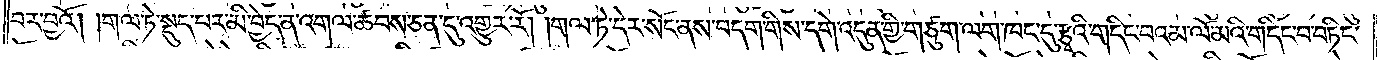བར་བྱའོ། །གལ་ཏེ་སྡུད་པར་མི་བྱེད་ན་འགལ་ཚབས་ཅན་དུ་འགྱུར་རོ། །གལ་ཏེ་དེར་སོང་ནས་བདག་གིས་དགེ་འདུན་གྱི་གཙུག་ལག་ཁང་དུ་རྩྭའི་གདིང་བའམ་ལོ་མའི་གདིང་བ་བཏིང་
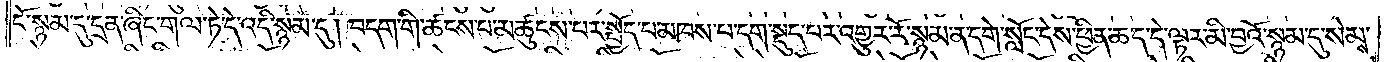ངོ་སྙམ་དུ་དྲན་ཞིང་གལ་ཏེ་དེ་འདི་སྙམ་དུ། བདག་གི་ཚངས་པ་མཚུངས་པར་སྤྱོད་པ་མཁས་པ་དག་སྡུད་པར་འགྱུར་རོ་སྙམ་ན་དགེ་སློང་དེས་ཕྱིན་ཆད་དེ་ལྟར་མི་བྱའོ་སྙམ་དུ་སེམས་
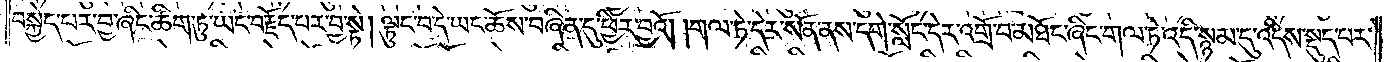བསྐྱེད་པར་བྱ་ཞིང་ཚིག་ཏུ་ཡང་བརྗོད་པར་བྱ་སྟེ། ལྟུང་བ་དེ་ཡང་ཆོས་བཞིན་དུ་ཕྱིར་བྱའོ། །གལ་ཏེ་དེར་སོན་ནས་དགེ་སློང་དེར་འགྲོ་བ་མཐོང་ཞིང་གལ་ཏེ་འདི་སྙམ་དུ་འདིས་སྡུད་པར་
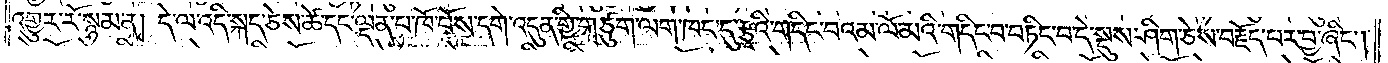འགྱུར་རོ་སྙམ་ན། དེ་ལ་འདི་སྐད་ཅེས་ཚེ་དང་ལྡན་པ་ཁོ་བོས་དགེ་འདུན་གྱི་གཙུག་ལག་ཁང་དུ་རྩྭའི་གདིང་བའམ་ལོ་མའི་གདིང་བ་བཏིང་བ་དེ་སྡུས་ཤིག་ཅེས་བརྗོད་པར་བྱ་ཞིང༌།
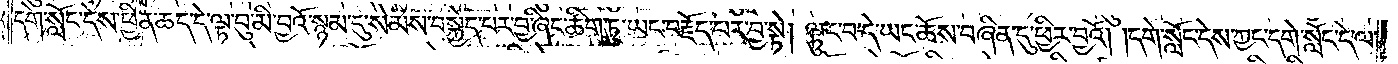དགེ་སློང་དེས་ཕྱིན་ཆད་དེ་ལྟ་བུ་མི་བྱའོ་སྙམ་དུ་སེམས་བསྐྱེད་པར་བྱ་ཞིང་ཚིག་ཏུ་ཡང་བརྗོད་པར་བྱ་སྟེ། ལྟུང་བ་དེ་ཡང་ཆོས་བཞིན་དུ་ཕྱིར་བྱའོ། །དགེ་སློང་དེས་ཀྱང་དགེ་སློང་དེ་ལ་
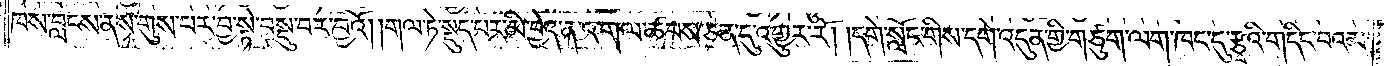ཁས་བླངས་ནས་གུས་པར་བྱ་སྟེ་བསྡུ་བར་བྱའོ། །གལ་ཏེ་སྡུད་པར་མི་བྱེད་ན་འགལ་ཆབས་ཅན་དུ་འགྱུར་རོ། །དགེ་སློང་གིས་དགེ་འདུན་གྱི་གཙུག་ལག་ཁང་དུ་རྩྭའི་གདིང་བའམ་
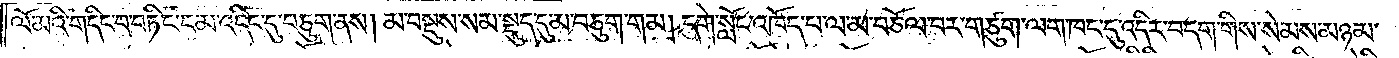ལོ་མའི་གདིང་བ་བཏིང་ངམ་འདིང་དུ་བཅུག་ནས། མ་བསྡུས་སམ་སྡུད་དུ་མ་བཅུག་གམ། དགེ་སློང་འཁོད་པ་ལ་མ་བཅོལ་བར་གཙུག་ལག་ཁང་དུ་འདིར་བདག་གིས་སེམས་མཉམ་
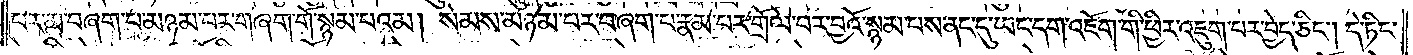པར་མ་བཞག་པ་མཉམ་པར་གཞག་གོ་སྙམ་པའམ། སེམས་མཉམ་པར་བཞག་པ་རྣམ་པར་གྲོལ་བར་བྱའོ་སྙམ་པས་ནང་དུ་ཡང་དག་པར་འཇོག་གི་ཕྱིར་འཇུག་པར་བྱེད་ཅིང༌། དེ་ཏིང་
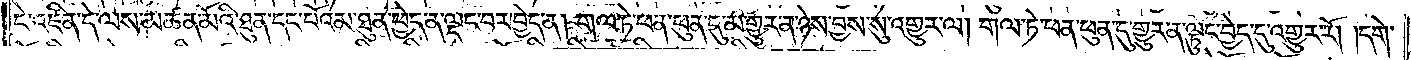ངེ་འཛིན་དེ་ལས་མཚན་མོའི་ཐུན་དང་པོའམ་ཐུན་ཕྱེད་ན་ལྡང་བར་བྱེད་ན། གལ་ཏེ་ཕན་ཕུན་དུ་མ་གྱུར་ན་ཉེས་བྱས་སུ་འགྱུར་ལ། གལ་ཏེ་ཕན་ཕུན་དུ་གྱུར་ན་བྱེད་དུ་འགྱུར་རོ། །དགེ་
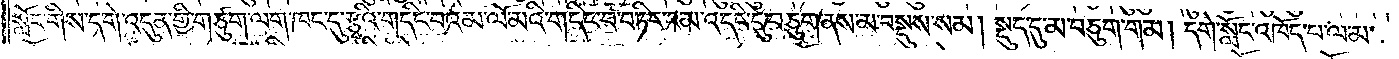སློང་གིས་དགེ་འདུན་གྱི་གཙུག་ལག་ཁང་དུ་རྩྭའི་གདིང་བའམ་ལོ་མའི་གདིང་བ་བཏིང་ངམ་འདིང་དུ་བཅུག་ནས་མ་བསྡུས་སམ། སྡུད་དུ་མ་བཅུག་གམ། དགེ་སློང་འཁོད་པ་ལ་མ་
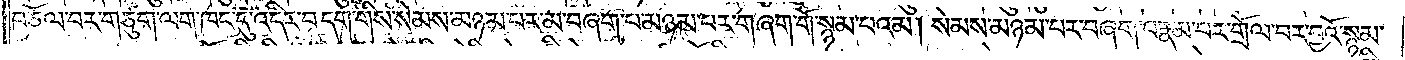བཅོལ་བར་གཙུག་ལག་ཁང་དུ་འདིར་བདག་གིས་སེམས་མཉམ་པར་མ་བཞག་པ་མཉམ་པར་གཞག་གོ་སྙམ་པའམ། སེམས་མཉམ་པར་བཞག་པ་རྣམ་པར་གྲོལ་བར་བྱའོ་སྙམ་
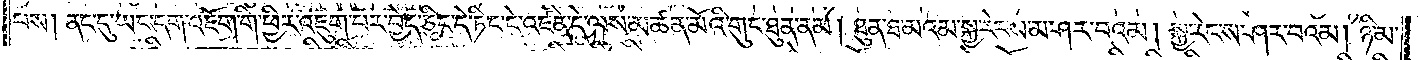པས། ནང་དུ་ཡང་དག་འཇོག་གི་ཕྱིར་འཇུག་པར་བྱེད་ཅིང་དེ་ཏིང་ངེ་འཛིན་དེ་ལས་མཚན་མོའི་གུང་ཐུན་ནམ། ཐུན་ཐ་མའམ་སྐྱ་རེངས་མ་ཤར་བའམ། སྐྱ་རེང་ས་ཤར་བའམ། ཉི་མ་
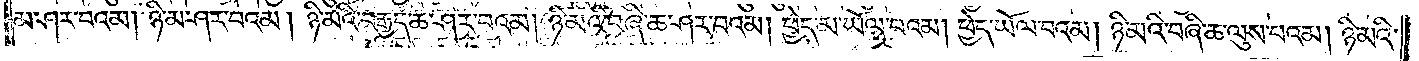མ་ཤར་བའམ། ཉི་མ་ཤར་བའམ། ཉི་མའི་བརྒྱད་ཆ་ཤར་བའམ། ཉི་མའི་བཞི་ཆ་ཤར་བའམ། ཕྱེད་མ་ཡོལ་བའམ། ཕྱེད་ཡོལ་བའམ། ཉི་མའི་བཞི་ཆ་ལུས་པའམ། ཉི་མའི་
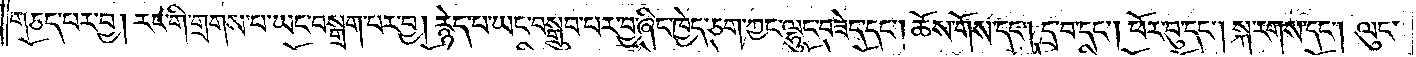གཅད་པར་བྱ། རང་གི་གྲགས་པ་ཡང་བསྒྲག་པར་བྱ། རྙེད་པ་ཡང་བསྒྲུབ་པར་བྱ་ཞིང་ཁྱེད་ཅག་ཀྱང་ལྷུང་བཟེད་དང༌། ཆོས་གོས་དང༌། དྲ་བ་དང༌། ཕོར་བུ་དང༌། སྐ་རགས་དང༌། ལུང་
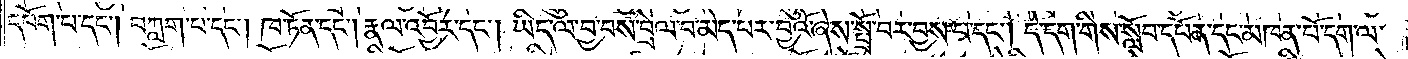དབོག་པ་དང༌། བཀླག་པ་དང༌། ཁ་ཏོན་དང༌། རྣལ་འབྱོར་དང༌། ཡིད་ལ་བྱ་བས་བྲེལ་བ་མེད་པར་བྱའོ་ཞེས་སྤྲོ་བར་བྱས་པ་དང༌། དེ་དག་གིས་སློབ་དཔོན་དང་མཁན་པོ་དག་ལ་
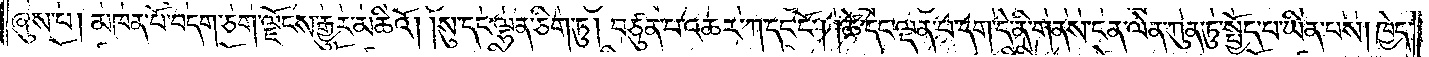ཞུས་པ། མཁན་པོ་བདག་ཅག་ལྗོངས་རྒྱུར་མཆིའོ། །སུ་དང་ལྷན་ཅིག་ཏུ། བཙུན་པ་འཆར་ཀ་དང་ངོ༌། །ཚེ་དང་ལྡན་པ་དག་དེ་ནི་གནས་ངན་ལེན་ཀུན་ཏུ་སྤྱོད་པ་ཡིན་པས། ཁྱེད་
